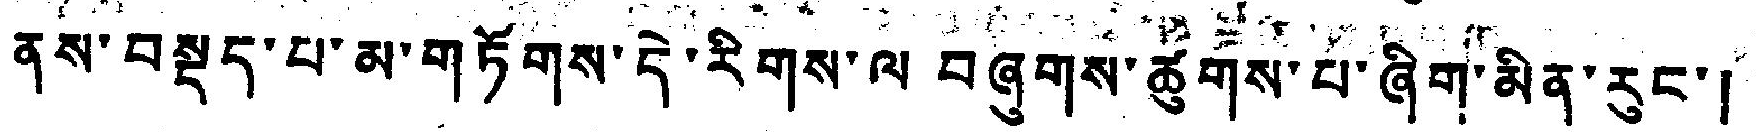ནས་བསྡད་པ་མ་གཏོགས་དེ་རིགས་ལ་བཞུགས་ཚུགས་པ་ཞིག་མིན་རུང་།
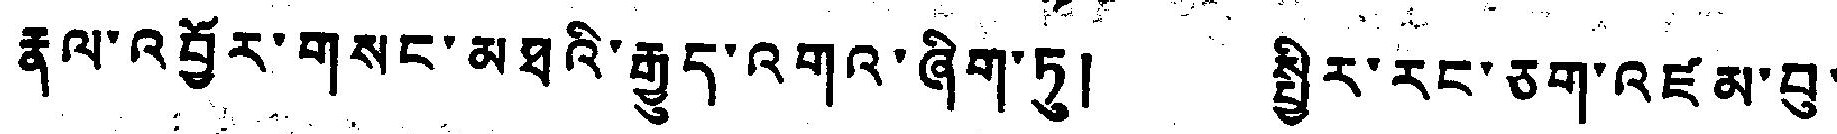རྣལ་འབྱོར་གསང་མཐའི་རྒྱུད་འགའ་ཞིག་ཏུ། སྤྱིར་རང་ཅག་འཛམ་བུ་
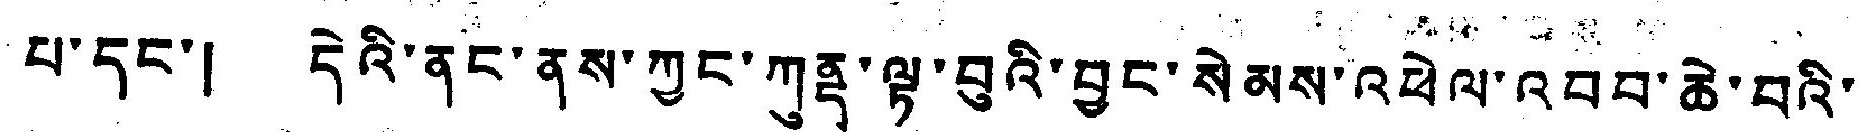པ་དང་། དེའི་ནང་ནས་ཀྱང་ཀུནད་ལྟ་བུའི་བྱང་སེམས་འཕེལ་འབབ་ཆེ་བའི་
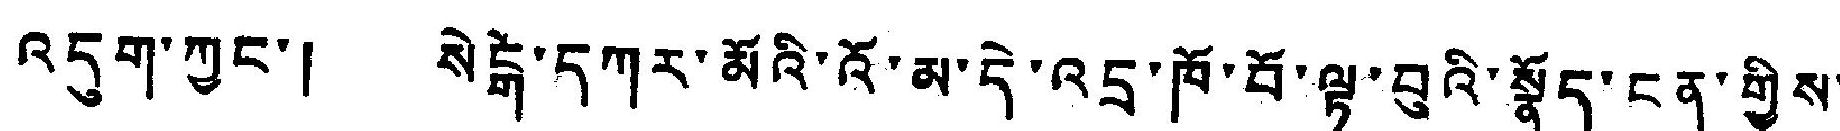འདུག་ཀྱང་། སེངྒེ་དཀར་མོའི་འོ་མ་དེ་འདྲ་ཁོ་བོ་ལྟ་བུའི་སྣོད་ངན་གྱིས་
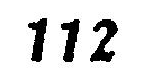112
